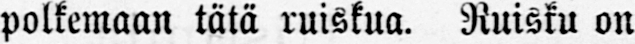polkemaan tätä ruiskua. Ruisku on
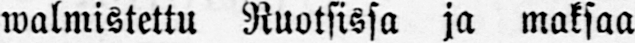walmistettu Ruotsissa ja maksaa
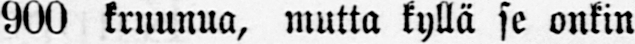900 kruunua, mutta kyllä se onkin
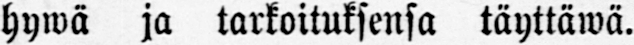hywä ja tarkoituksensa täyttäwä.
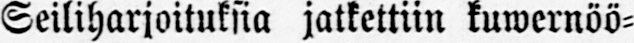Seiliharjoituksia jatkettiin kuwernöö-
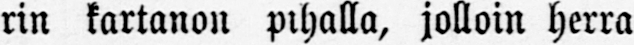rin kartanon pihalla, jolloin herra
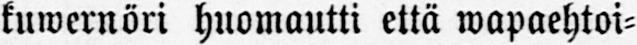kuwernöri huomautti että wapaehtoi-
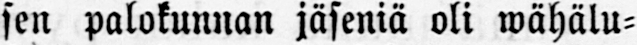sen palokunnan jäseniä oli wähälu-
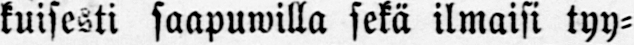kuisesti saapuwilla sekä ilmaisi tyy-
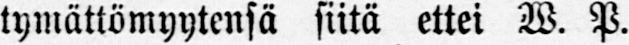tymättömyytensä siitä ettei W. P.
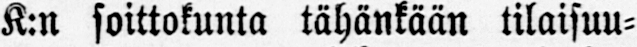K:n soittokunta tähänkään tilaisuu-
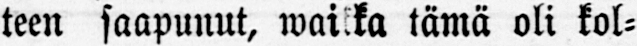teen saapunut, waikka tämä oli kol-
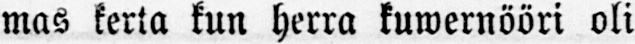mas kerta kun herra kuwernööri oli
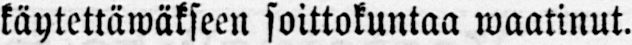käytettäwäkseen soittokuntaa waatinut.
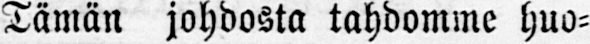Tämän johdosta tahdomme huo-
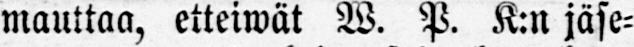mauttaa, etteiwät W. P. K:n jäse-
